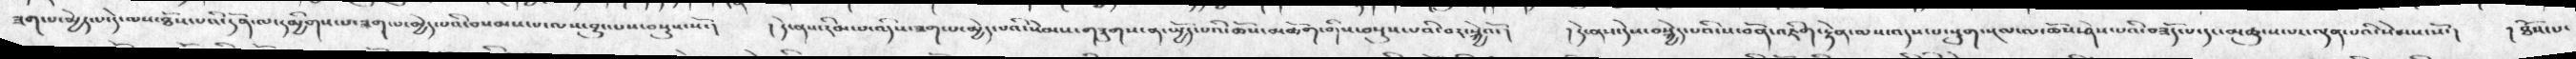ཟག་པ་མྱེད་པ་དེ་ལས་ཐོས་པའི་དོན་ལ་དམྱིགས་པ་ཟག་པ་མྱེད་པའི་བསམས་པ་ལས་བྱུང་པས་བསྡུས་སོ་།  །   དེ་ནས་རིམ་པ་འདིས་ཟག་པ་མྱེད་པའི་སེམས་གཟུགས་ན་ཡྱོད་པའི་ཆོས་མཆོག་གིས་བསྡུས་པའི་བར་སྐྱེའོ་།   ། དེ་ནས་དེས་བསྐྱེད་པའི་ས་བོན་འཇིག་རྟེན་ལས་འདས་པ་སྡུག་སྔལ་ལ་ཆོས་ཤེས་པའི་བཟོད་པ་དང་མཚུངས་པར་ལྡན་པའི་སེམས་སོ་།    ། ཐོས་པ་
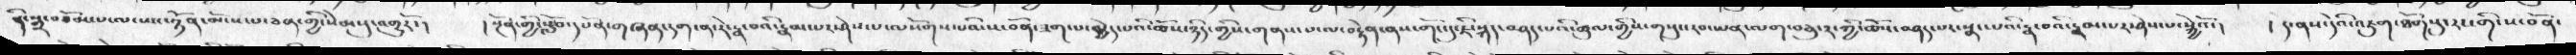དེ་སྒྲ་བཅོམ་པ་ལ་ཡང་ཉོན་མོངས་པ་ཅན་གྱི་སེམསུ་འགྱུརོ་།    ། སྔོན་གྱི་སློབ་དཔོན་གཞན་དག་ན་རེ་རྣ་བའི་རྣམ་པར་ཤེས་པ་ལསོགས་པའི་ས་བོན་ཟག་པ་མྱེད་པའི་ཆོས་ཉིད་གྱིས་གནས་པ་ལ་བརྟེན་ནས་གོང་དུ་ཇི་སྐད་བཤད་པའི་ཚུལ་གྱིས་གསུང་རབ་ཡན་ལག་བཅུ་༢་ཀྱི་ཆོས་བཤད་པར་སྣང་པའི་རྣ་བའི་རྣམ་པར་ཤེས་པ་སྐྱེའོ་།    ། ད་ནས་དེའི་འཇུག་ཐོགསུ་རང་གིས་ས་བོན་
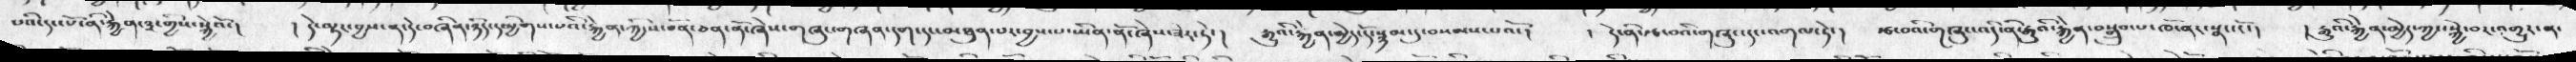པའི་དང་པོ་ནི་རྐྱེན་༣་གྱིས་སྐྱེའོ་།  ། དེ་ལྟར་བྱས་ན་དེ་བཞིན་ཉིད་དམྱིགས་པའི་རྐྱེན་ཀྱི་ས་བོན་ཅན་ནོ་ཞེས་གཞུང་གཞན་དག་དང་མཐུན་པར་བྱས་པ་ཡིན་ནོ་ཞེས་ཟེ་ཏེ་།   རྒྱུའི་རྐྱེན་མྱེད་དོ་སྙམ་དུ་མསམས་པའོ་།   ། དེ་ནི་རྩ་བའི་གཞུང་དང་འགལ་ཏེ་།  རྩ་བའི་གཞུང་འདི་ནི་རྒྱུའི་རྐྱེན་བསྒྲུབ་པ་ཁོ་ནར་སྣང་ངོ་།   ། རྒྱུའི་རྐྱེན་མྱེད་ཀྱང་སྐྱེ་བར་འགྱུར་ན་
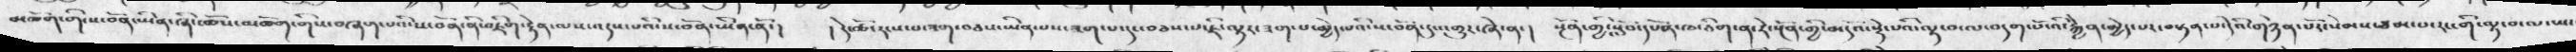མཆོག་གི་ས་བོན་ཡིན་ཞིང་ཆོས་མཆོག་གིས་བཞག་པའི་ས་བོན་ནི་འཇིག་རྟེན་ལས་འདས་པའི་ས་བོན་ཡིན་ནོ་།    ། དེ་ཚོ་དངས་པ་ཟག་བཅས་ཡིན་པས་ཟག་པ་དང་བཅས་པ་ཇི་ལྟར་ཟག་པ་མྱེད་པའི་ས་བོན་དུ་འགྱུར་ཞེ་ན་།   སྔོན་གྱི་སློབ་དཔོན་་ཁ་ཅིག་ན་རེ་སྔོན་གྱི་མདོའ་སྡེ་པའི་ལྟ་བ་ལ་བདག་པོའི་རྐྱེན་མྱེད་པར་བསྟན་པ་དེའི་གཉེན་པོར་སེམས་ཙམ་པ་རང་གི་ལྟ་བ་ལ་ཡང་
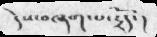དེས་བཞག་པ་དྲོད་།
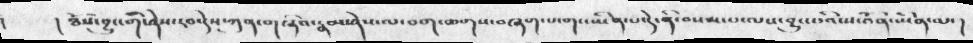།    ། ཐོས་བྱུང་གི་ཤེས་རབ་དེས་ཀུན་གཞིའ་རྣམ་ཤེས་ལ་བག་ཆགས་བཞག་པ་གང་ཡིན་པ་དེ་ནི་བསམ་པ་ལས་བྱུང་པའི་ས་བོན་ཡིན་ལ་
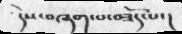དེས་བཞག་པ་བཟོད་པ་།
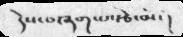དེས་བཞག་པ་རྩེ་མོ་།
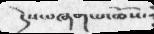དེས་བཞག་པ་ཆོས་
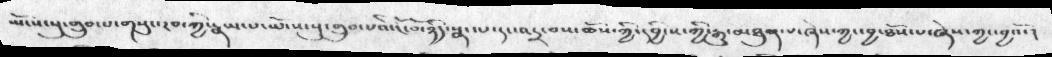ཡོངས་སུ་གྲུབ་པ་གསུང་རབ་ཀྱི་རྣམ་པ་ཡོངས་སུ་གྲུབ་པའི་ངོ་བོ་ཉིད་སྣང་པ་དང་འདྲ་བས་ཆོས་ཀྱི་དབྱིངས་ཀྱི་རྒྱུ་མཐུན་པ་ཞེས་ཀྱང་བྱ་ཐོས་པ་ཞེས་ཀྱང་བྱའོ་།
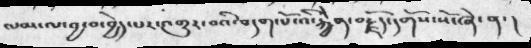ལམ་ལ་བྱ་བ་བྱེད་པར་འགྱུར་བའི་བདག་པོ་འི་རྐྱེན་བརྗོད་དགོས་སོ་ཞེ་ན་ །
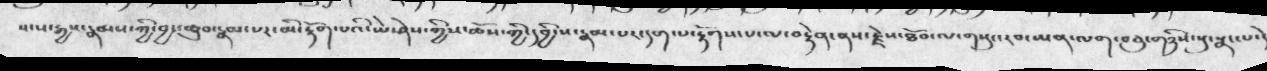སངས་རྒྱས་རྣམས་ཀྱི་བྱང་ཆུབ་རྣམ་པར་མི་རྟོག་པའི་ཡེ་ཤེས་ཀྱིས་ཆོས་ཀྱི་དབྱིངས་རྣམ་པར་དག་པ་རྟོགས་པ་ལ་བརྟེན་ནས་རྗེས་ཐོབ་ལ་གསུང་རབ་ཡན་ལག་བཅུ་གཉིས་སུ་སྣང་པ་དེ་
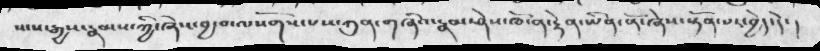སངས་རྒྱས་རྣམས་ཀྱི་ཞེས་བྱ་བ་ལསོགས་པས་ཀུན་གཞཱིའ་རྣམ་ཤེས་ཁོ་ན་རྟེན་ཡིན་ནོ་ཞེས་སྟོན་པར་བྱེད་དེ་།
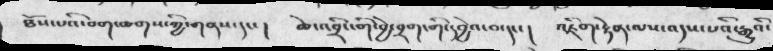ཐོས་པའི་བག་ཆགས་ཀྱི་གནས་དང་ །     ཆེ་འབྲིང་གི་བྱེ་བྲག་གི་དབྱེའ་བ་དང་།     འཇིག་རྟེན་ལས་འདས་པའི་རྒྱུའི་
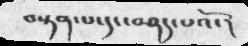བསྟན་པ་དང་བཤད་པའོ་།
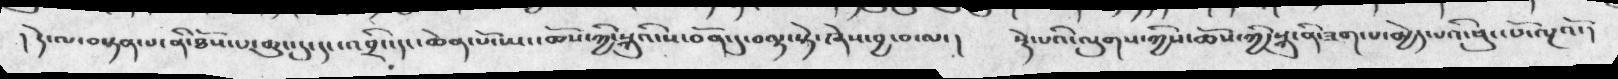། དེ་ལ་བསྟན་པ་ནི་ཐོས་པ་ཆུང་དུ་དང་འབྲིང་དང་ཆེན་པོ་ཡང་ཆོས་ཀྱི་སྐུའི་ས་བོན་དུ་བལྟ་སྟེ་ཞེས་བྱ་པ་ལ་།   སྡེ་པའི་ལུགས་ཀྱིས་ཆོས་ཀྱི་སྐུ་ནི་ཟག་པ་མྱེད་པའི་ཕུང་པོ་ལྔའོ་།
